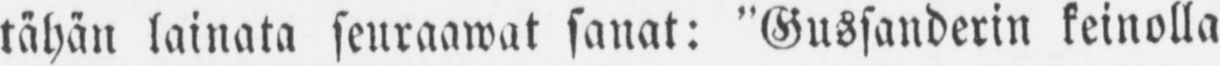tähän lainata seuraawat sanat: "Gussanderin keinolla
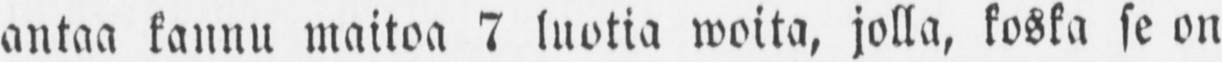antaa kannu maitoa 7 luotia woita, jolla, koska se on
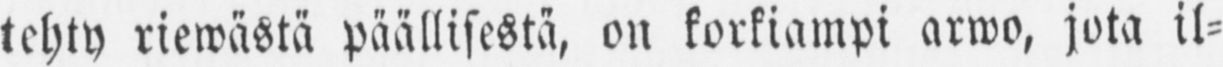tehty riewästä päällisestä, on korkiampi arwo, jota il-
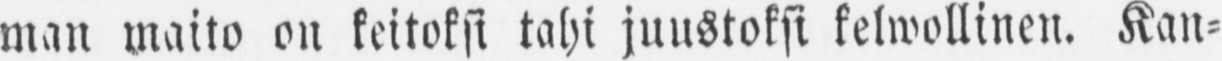man maito on keitoksi tahi juustoksi kelwollinen. Kan-
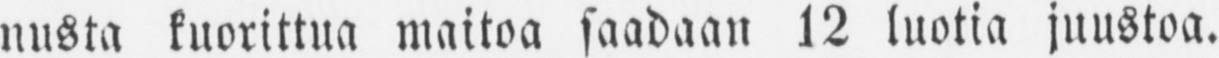nusta kuorittua maitoa saadaan 12 luotia juustoa.
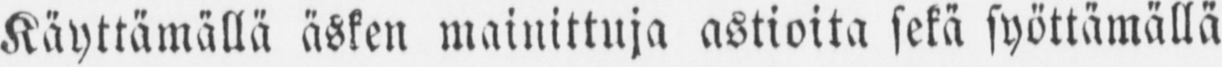Käyttämällä äsken mainittuja astioita sekä syöttämällä
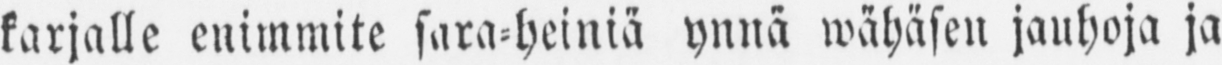karjalle enimmite sara-heiniä ynnä wähäsen jauhoja ja
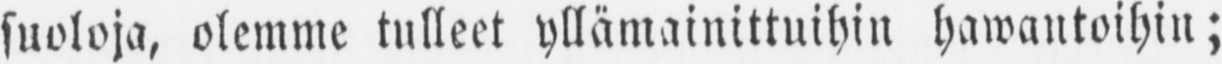suoloja, olemme tulleet yllämainittuihin hawantoihin;
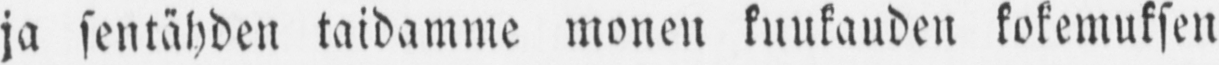ja sentähden taidamme monen kuukauden kokemuksen
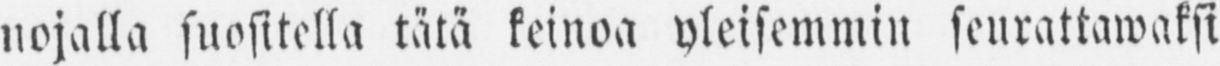nojalla suositella tätä keinoa yleisemmin seurattawaksi
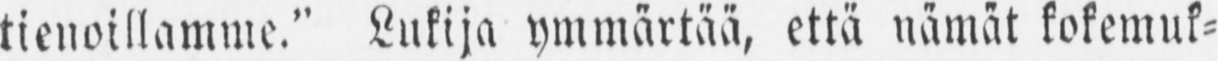tienoillamme." Lukija ymmärtää, että nämät kokemuk-
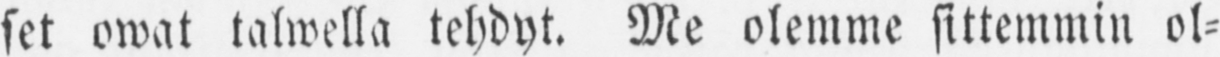set owat talwella tehdyt. Me olemme sittemmin ol-
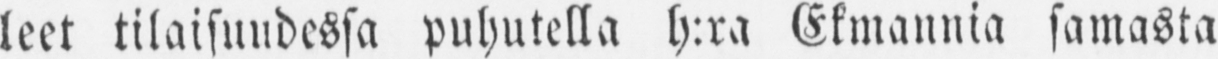leet tilaisuudessa puhutella h:ra Ekmannia samasta
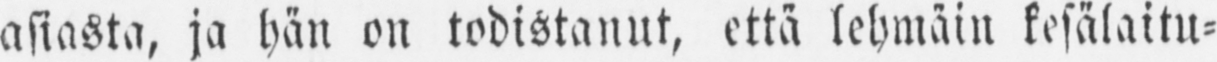asiasta, ja hän on todistanut, että lehmäin kesälaitu-
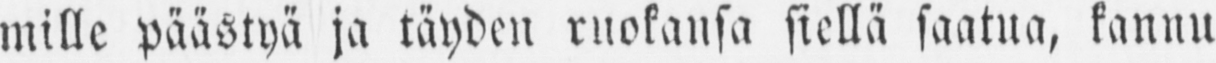mille päästyä ja täyden ruokansa siellä saatua, kannu
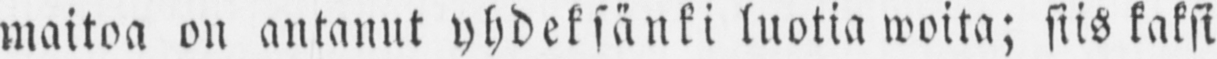maitoa on antanut yhdeksänki luotia woita; siis kaksi
